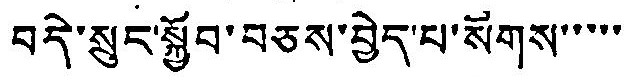བདེ་སྲུང་སྐྱོབ་བཅས་བྱེད་པ་སོགས་་་་་
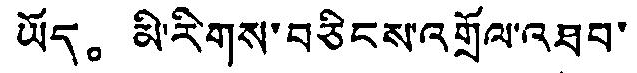ཡོད。 མི་རིགས་བཅིངས་འགྲོལ་འཐབ་
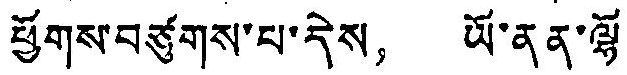ཕྱོགས་བཙུགས་པ་དེས， ཡོ་ནན་ལྷོ་
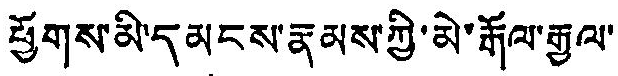ཕྱོགས་མི་དམངས་རྣམས་ཀྱི་མེ་རྒོལ་རྒྱལ་
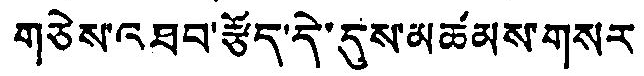གཅེས་འཐབ་རྩོད་དེ་དུས་མཚམས་གསར
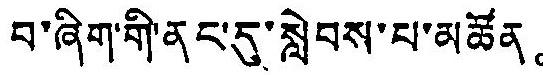བ་ཞིག་གི་ནང་དུ་སླེབས་པ་མཚོན。
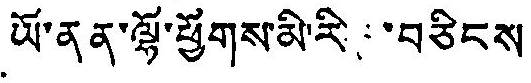ཡོ་ནན་ལྷོ་ཕྱོགས་མི་རི： “བཅིངས
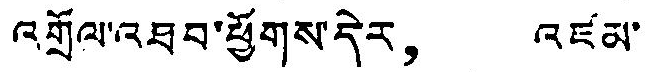འགྲོལ་འཐབ་ཕྱོགས་དེར， འཛམ་
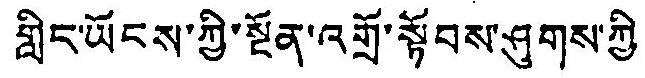གླིང་ཡོངས་ཀྱི་སྔོན་འགྲོ་སྟོབས་ཤུགས་ཀྱི
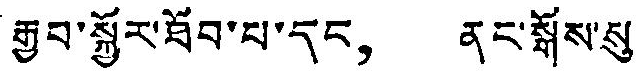རྒྱབ་སྐྱོར་ཐོབ་པ་དང， ནང་སྒོས་སུ་
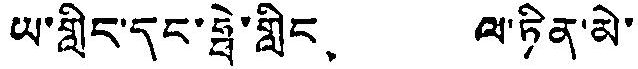ཡ་གླིང་དང་ཧྥེ་གླིང， ལ་ཏིན་མེ་
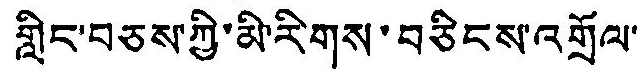གླིང་བཅས་ཀྱི་མི་རིགས་བཅིངས་འགྲོལ་
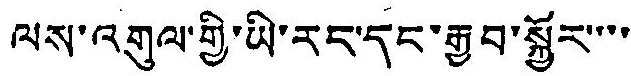ལས་འགུལ་གྱི་ཡི་རང་དང་རྒྱབ་སྐྱོར་་་་
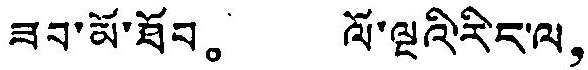ཟབ་མོ་ཐོབ。 ལོ་ལྔའི་རི་ང་ལ，
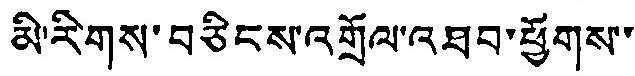མི་རིགས་བཅིངས་འགྲོལ་འཐབ་ཕྱོགས་་
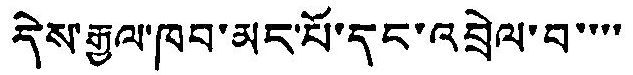དེས་རྒྱལ་ཁབ་མང་པོ་དང་འབྲེལ་བ་་་་
